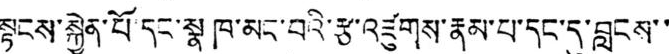སྟངས་སྐྱེན་པོ་དང་སྣ་ཁ་མང་བའི་རྩ་འཛུགས་རྣམ་པ་དང་དུ་བླངས་་
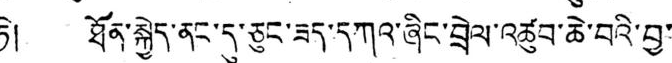ཏེ། ཐོན་སྐྱེད་ནང་དུ་ཅུང་ཟད་དཀའ་ཞིང་བྲེལ་འཚུབ་ཆེ་བའི་བྱ་
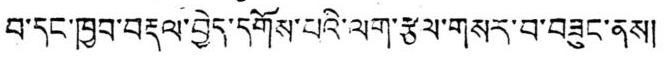བ་དང་ཁྱབ་བརྡལ་བྱེད་དགོས་པའི་ལག་རྩལ་གསར་བ་བཟུང་ནས།
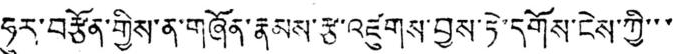ཧུར་བརྩོན་གྱིས་ན་གཞོན་རྣམས་རྩ་འཛུགས་བྱས་ཏེ་དགོས་ངེས་ཀྱི་་་
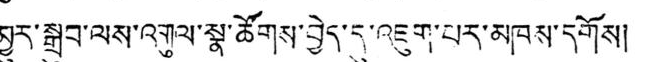མྱུར་སྒྲུབ་ལས་འགུལ་སྣ་ཚོགས་བྱེད་དུ་འཇུག་པར་མཁས་དགོས།
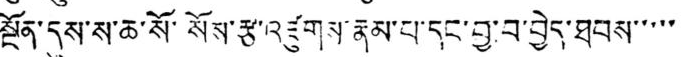སྔོན་དུས་ས་ཆ་སོ་སོས་རྩ་འཛུགས་རྣམ་པ་དང་བྱ་བ་བྱེད་ཐབས་་་་་
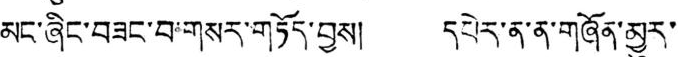མང་ཞིང་བཟང་བ་གསར་གཏོད་བྱས། དཔེར་ན་ན་གཞོན་མྱུར་
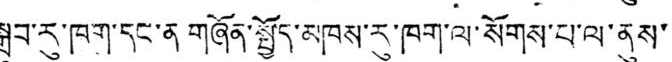སྒྲུབ་རུ་ཁག་དང་ན་གཞོན་སྤྱོད་མཁས་རུ་ཁག་ལ་སོགས་པ་ལ་ནུས་
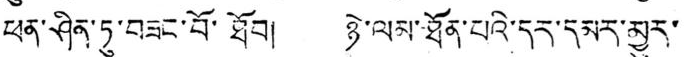ཕན་ཤིན་ཏུ་བཟང་བོ་ཐོབ། ཉེ་ལམ་ཐོན་པའི་དར་དམར་མྱུར་
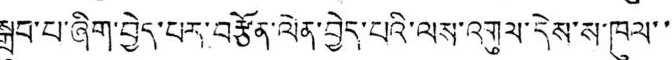སྒྲུབ་པ་ཞིག་བྱེད་པར་བརྩོན་ལེན་བྱེད་པའི་ལས་འགུལ་དེས་ས་ཁུལ་་
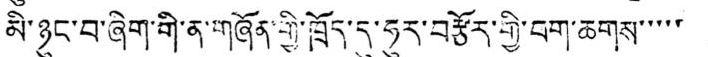མི་ཉུང་བ་ཞིག་གི་ན་གཞོན་གྱི་ཁྲོད་དུ་ཧུར་བརྩོར་གྱི་བག་ཆགས་་་་་
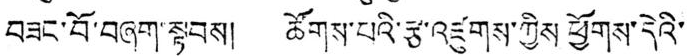བཟང་བོ་བཞག་སྟབས། ཚོགས་པའི་རྩ་འཛུགས་ཀྱིས་ཕྱོགས་དེའི་
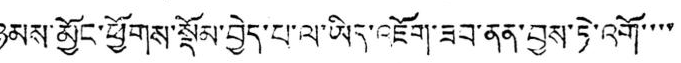ཉམས་མྱོང་ཕྱོགས་སྡོམ་བྱེད་པ་ལ་ཡིད་འཇོག་ཟབ་ནན་བྱས་ཏེ་འགོ་་་་
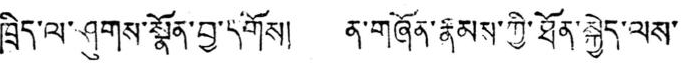ཁྲིད་ལ་ཤུགས་སྣོན་བྱ་དགོས། ན་གཞོན་རྣམས་ཀྱི་ཐོན་སྐྱེད་ལས་
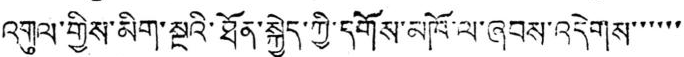འགུལ་གྱིས་མིག་སྔའི་ཐོན་སྐྱེད་ཀྱི་དགོས་མཁོ་ལ་ཞབས་འདེགས་་་་་་
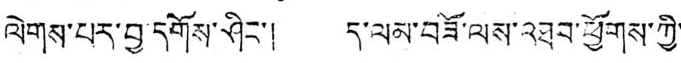ལེགས་པར་བྱ་དགོས་ཤིང་། ད་ལམ་བཟོ་ལས་འཐབ་ཕྱོགས་ཀྱི་
